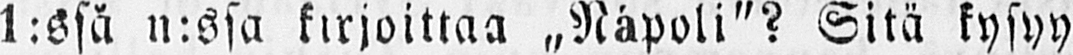1:ssă n:ssa kirjoittaa „Nápoli"? Sitä kysyy
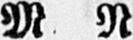M. N.
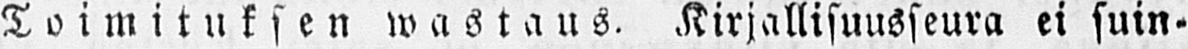Toimituksen wastaus. Kirjallisuusseura ei suin-
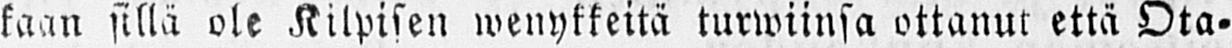kaan sillä ole Kilpisen wenykkeitä turwiinsa ottanut että Ota-
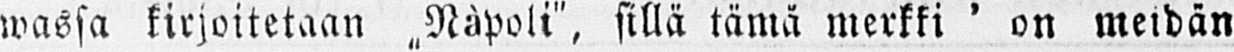wassa kirjoitetaan „Nàpoli", sillä tämä merkki ' on meidän
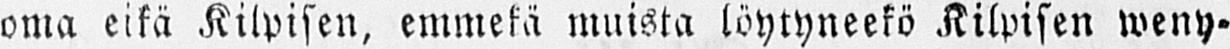oma eikä Kilpisen, emmekä muista löytyneekö Kilpisen weny-
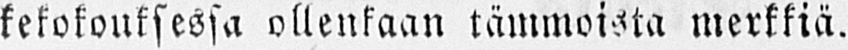kekokouksessa ollenkaan tämmoistä merkkiä.
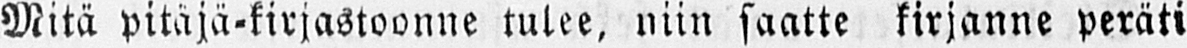Mitä pitäjä-kirjastoonne tulee, niin saatte kirjanne peräti
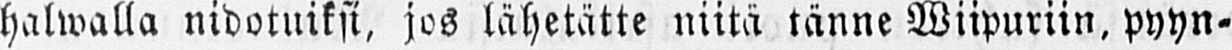halwalla nidotuiksi, jos lähetätte niitä tänne Wiipuriin, pyyn-
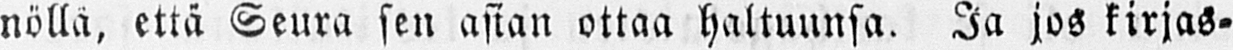nöllä, että Seura sen asian ottaa haltuunsa. Ja jos kirjas-
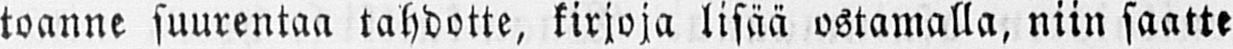toanne suurentaa tahdotte, kirjoja lisää ostamalla, niin saatte
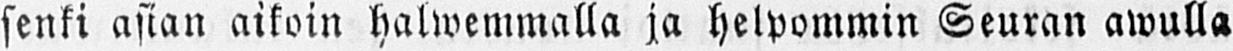senki asian aikoin halwemmalla ja helpommin Seuran awulla
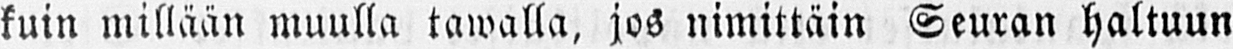kuin millään muulla tawalla, jos nimittäin Seuran haltuun
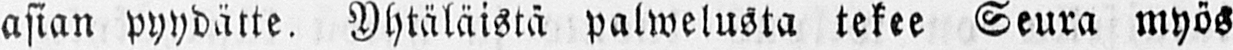asian pyydätte. Yhtäläistä palwelusta tekee Seura myös
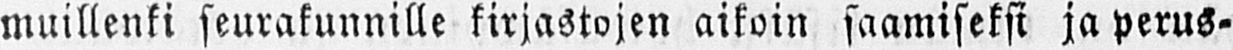muillenki seurakunnille kirjastojen aikoin saamiseksi ja perus-
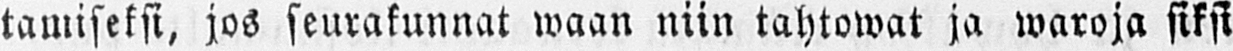tamiseksi, jos seurakunnat waan niin tahtowat ja waroja siksi
